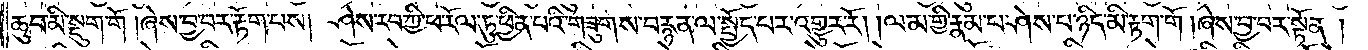ཆུབ་མི་སྡུག་གོ །ཞེས་བྱ་བར་རྟོག་པས། ཤེས་རབ་ཀྱི་ཕ་རོལ་ཏུ་ཕྱིན་པའི་གཟུགས་བརྙན་ལ་སྤྱོད་པར་འགྱུར་རོ། །ལམ་གྱི་རྣམ་པ་ཤེས་པ་ཉིད་མི་རྟག་གོ །ཞེས་བྱ་བར་སྟོན།
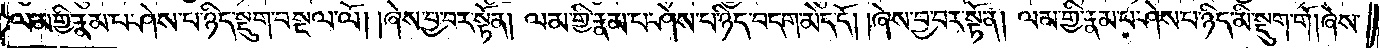ལམ་གྱི་རྣམ་པ་ཤེས་པ་ཉིད་སྡུག་བསྔལ་ལོ། །ཞེས་བྱ་བར་སྟོན། ལམ་གྱི་རྣམ་པ་ཤེས་པ་ཉིད་བདག་མེད་དོ། །ཞེས་བྱ་བར་སྟོན། ལམ་གྱི་རྣམ་པ་ཤེས་པ་ཉིད་མི་སྡུག་གོ །ཞེས་
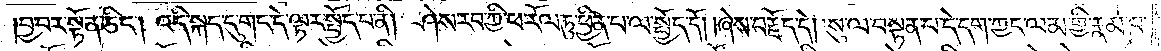བྱ་བར་སྟོན་ཅིང༌། འདི་སྐད་དུ་གང་དེ་ལྟར་སྤྱོད་པ་ནི། ཤེས་རབ་ཀྱི་ཕ་རོལ་ཏུ་ཕྱིན་པ་ལ་སྤྱོད་དོ། །ཞེས་བརྗོད་དེ། སུ་ལ་བསྟན་པ་དེ་དག་ཀྱང་ལམ་གྱི་རྣམ་པ་
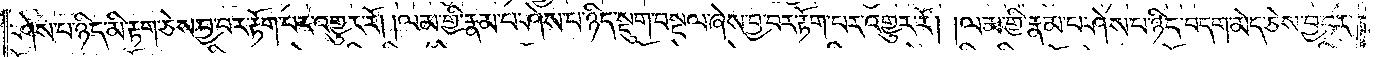ཤེས་པ་ཉིད་མི་རྟག་ཅེས་བྱ་བར་རྟོག་པར་འགྱུར་རོ། །ལམ་གྱི་རྣམ་པ་ཤེས་པ་ཉིད་སྡུག་བསྔལ་ཞེས་བྱ་པར་རྟོག་པར་འགྱུར་རོ། །ལམ་གྱི་རྣམ་པ་ཤེས་པ་ཉིད་བདག་མེད་ཅེས་བྱ་བར་
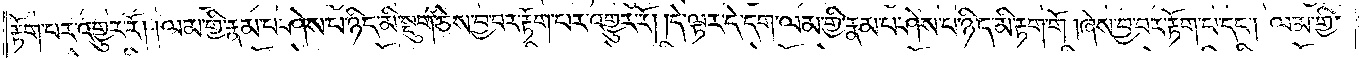རྟོག་པར་འགྱུར་རོ། །ལམ་གྱི་རྣམ་པ་ཤེས་པ་ཉིད་མི་སྡུག་ཅེས་བྱ་བར་རྟོག་པར་འགྱུར་རོ། །དེ་ལྟར་དེ་དག་ལམ་གྱི་རྣམ་པ་ཤེས་པ་ཉིད་མི་རྟག་གོ །ཞེས་བྱ་བར་རྟོག་པ་དང༌། ལམ་གྱི་
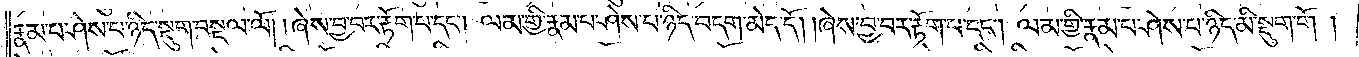རྣམ་པ་ཤེས་པ་ཉིད་སྡུག་བསྔལ་ལོ། །ཞེས་བྱ་བར་རྟོག་པ་དང༌། ལམ་གྱི་རྣམ་པ་ཤེས་པ་ཉིད་བདག་མེད་དོ། །ཞེས་བྱ་བར་རྟོག་པ་དང༌། ལམ་གྱི་རྣམ་པ་ཤེས་པ་ཉིད་མི་སྡུག་གོ །
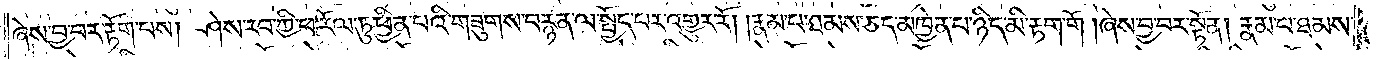ཞེས་བྱ་བར་རྟོག་པས། ཤེས་རབ་ཀྱི་ཕ་རོལ་ཏུ་ཕྱིན་པའི་གཟུགས་བརྙན་ལ་སྤྱོད་པར་འགྱུར་རོ། །རྣམ་པ་ཐམས་ཅད་མཁྱེན་པ་ཉིད་མི་རྟག་གོ །ཞེས་བྱ་བར་སྟོན། རྣམ་པ་ཐམས་
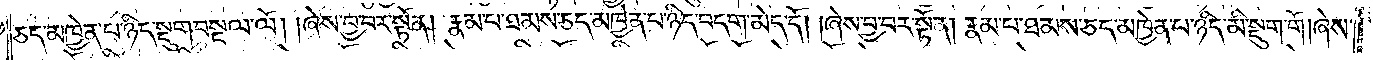ཅད་མཁྱེན་པ་ཉིད་སྡུག་བསྔལ་ལོ། །ཞེས་བྱ་བར་སྟོན། རྣམ་པ་ཐམས་ཅད་མཁྱེན་པ་ཉིད་བདག་མེད་དོ། །ཞེས་བྱ་བར་སྟོན། །རྣམ་པ་ཐམས་ཅད་མཁྱེན་པ་ཉིད་མི་སྡུག་གོ །ཞེས་
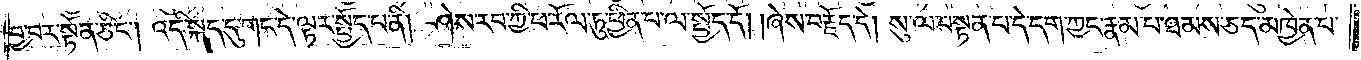བྱ་བར་སྟོན་ཅིང༌། འདི་སྐད་དུ་གང་དེ་ལྟར་སྤྱོད་པ་ནི། ཤེས་རབ་ཀྱི་ཕ་རོལ་ཏུ་ཕྱིན་པ་ལ་སྤྱོད་དོ། །ཞེས་བརྗོད་དེ། སུ་ལ་བསྟན་པ་དེ་དག་ཀྱང་རྣམ་པ་ཐམས་ཅད་མཁྱེན་པ་
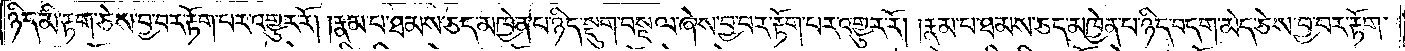ཉིད་མི་རྟག་ཅེས་བྱ་བར་རྟོག་པར་འགྱུར་རོ། །རྣམ་པ་ཐམས་ཅད་མཁྱེན་པ་ཉིད་སྡུག་བསྔལ་ཞེས་བྱ་བར་རྟོག་པར་འགྱུར་རོ། །རྣམ་པ་ཐམས་ཅད་མཁྱེན་པ་ཉིད་བདག་མེད་ཅེས་བྱ་བར་རྟོག་
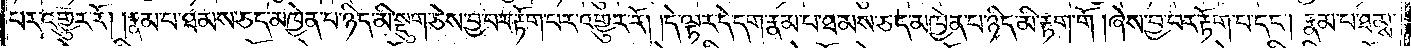པར་འགྱུར་རོ། །རྣམ་པ་ཐམས་ཅད་མཁྱེན་པ་ཉིད་མི་སྡུག་ཅེས་བྱ་བར་རྟོག་པར་འགྱུར་རོ། །དེ་ལྟར་དེ་དག་རྣམ་པ་ཐམས་ཅད་མཁྱེན་པ་ཉིད་མི་རྟག་གོ །ཞེས་བྱ་བར་རྟོག་པ་དང༌། རྣམ་པ་ཐམས་
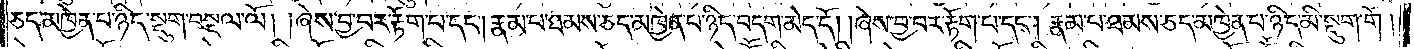ཅད་མཁྱེན་པ་ཉིད་སྡུག་བསྔལ་ལོ། །ཞེས་བྱ་བར་རྟོག་པ་དང༌། རྣམ་པ་ཐམས་ཅད་མཁྱེན་པ་ཉིད་བདག་མེད་དོ། །ཞེས་བྱ་བར་རྟོག་པ་དང༌། རྣམ་པ་ཐམས་ཅད་མཁྱེན་པ་ཉིད་མི་སྡུག་གོ །
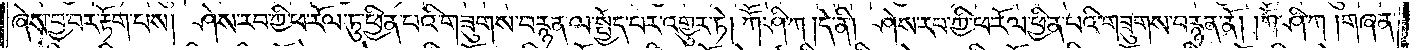ཞེས་བྱ་བར་རྟོག་པས། ཤེས་རབ་ཀྱི་ཕ་རོལ་ཏུ་ཕྱིན་པའི་གཟུགས་བརྙན་ལ་སྤྱོད་པར་འགྱུར་ཏེ། ཀཽ་ཤི་ཀ །དེ་ནི། ཤེས་རབ་ཀྱི་ཕ་རོལ་ཏུ་ཕྱིན་པའི་གཟུགས་བརྙན་ནོ། །ཀཽ་ཤི་ཀ། གཞན་
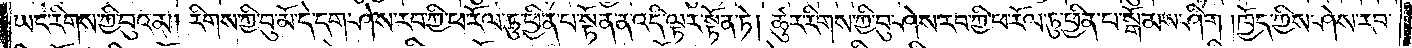ཡང་རིགས་ཀྱི་བུའམ། རིགས་ཀྱི་བུ་མོ་དེ་དག་ཤེས་རབ་ཀྱི་ཕ་རོལ་ཏུ་ཕྱིན་པ་སྟོན་ན་འདི་ལྟར་སྟོན་ཏེ། ཚུར་རིགས་ཀྱི་བུ་ཤེས་རབ་ཀྱི་ཕ་རོལ་ཏུ་ཕྱིན་པ་སྒོམས་ཤིག །ཁྱོད་ཀྱིས་ཤེས་རབ་
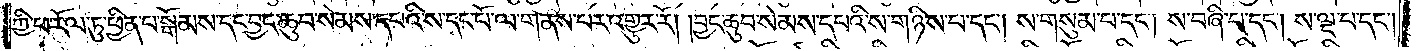ཀྱི་ཕ་རོལ་ཏུ་ཕྱིན་པ་སྒོམས་དང་བྱང་ཆུབ་སེམས་དཔའི་ས་དང་པོ་ལ་གནས་པར་འགྱུར་རོ། །བྱང་ཆུབ་སེམས་དཔའི་ས་གཉིས་པ་དང༌། ས་གསུམ་པ་དང༌། ས་བཞི་པ་དང༌། ས་ལྔ་པ་དང༌།
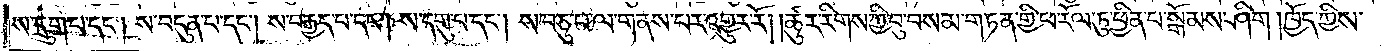ས་དྲུག་པ་དང༌། ས་བདུན་པ་དང༌། ས་བརྒྱད་པ་དང༌། ས་དགུ་པ་དང༌། ས་བཅུ་པ་ལ་གནས་པར་འགྱུར་རོ། །ཚུར་རིགས་ཀྱི་བུ་བསམ་གཏན་གྱི་ཕ་རོལ་ཏུ་ཕྱིན་པ་སྒོམས་ཤིག །ཁྱོད་ཀྱིས་
